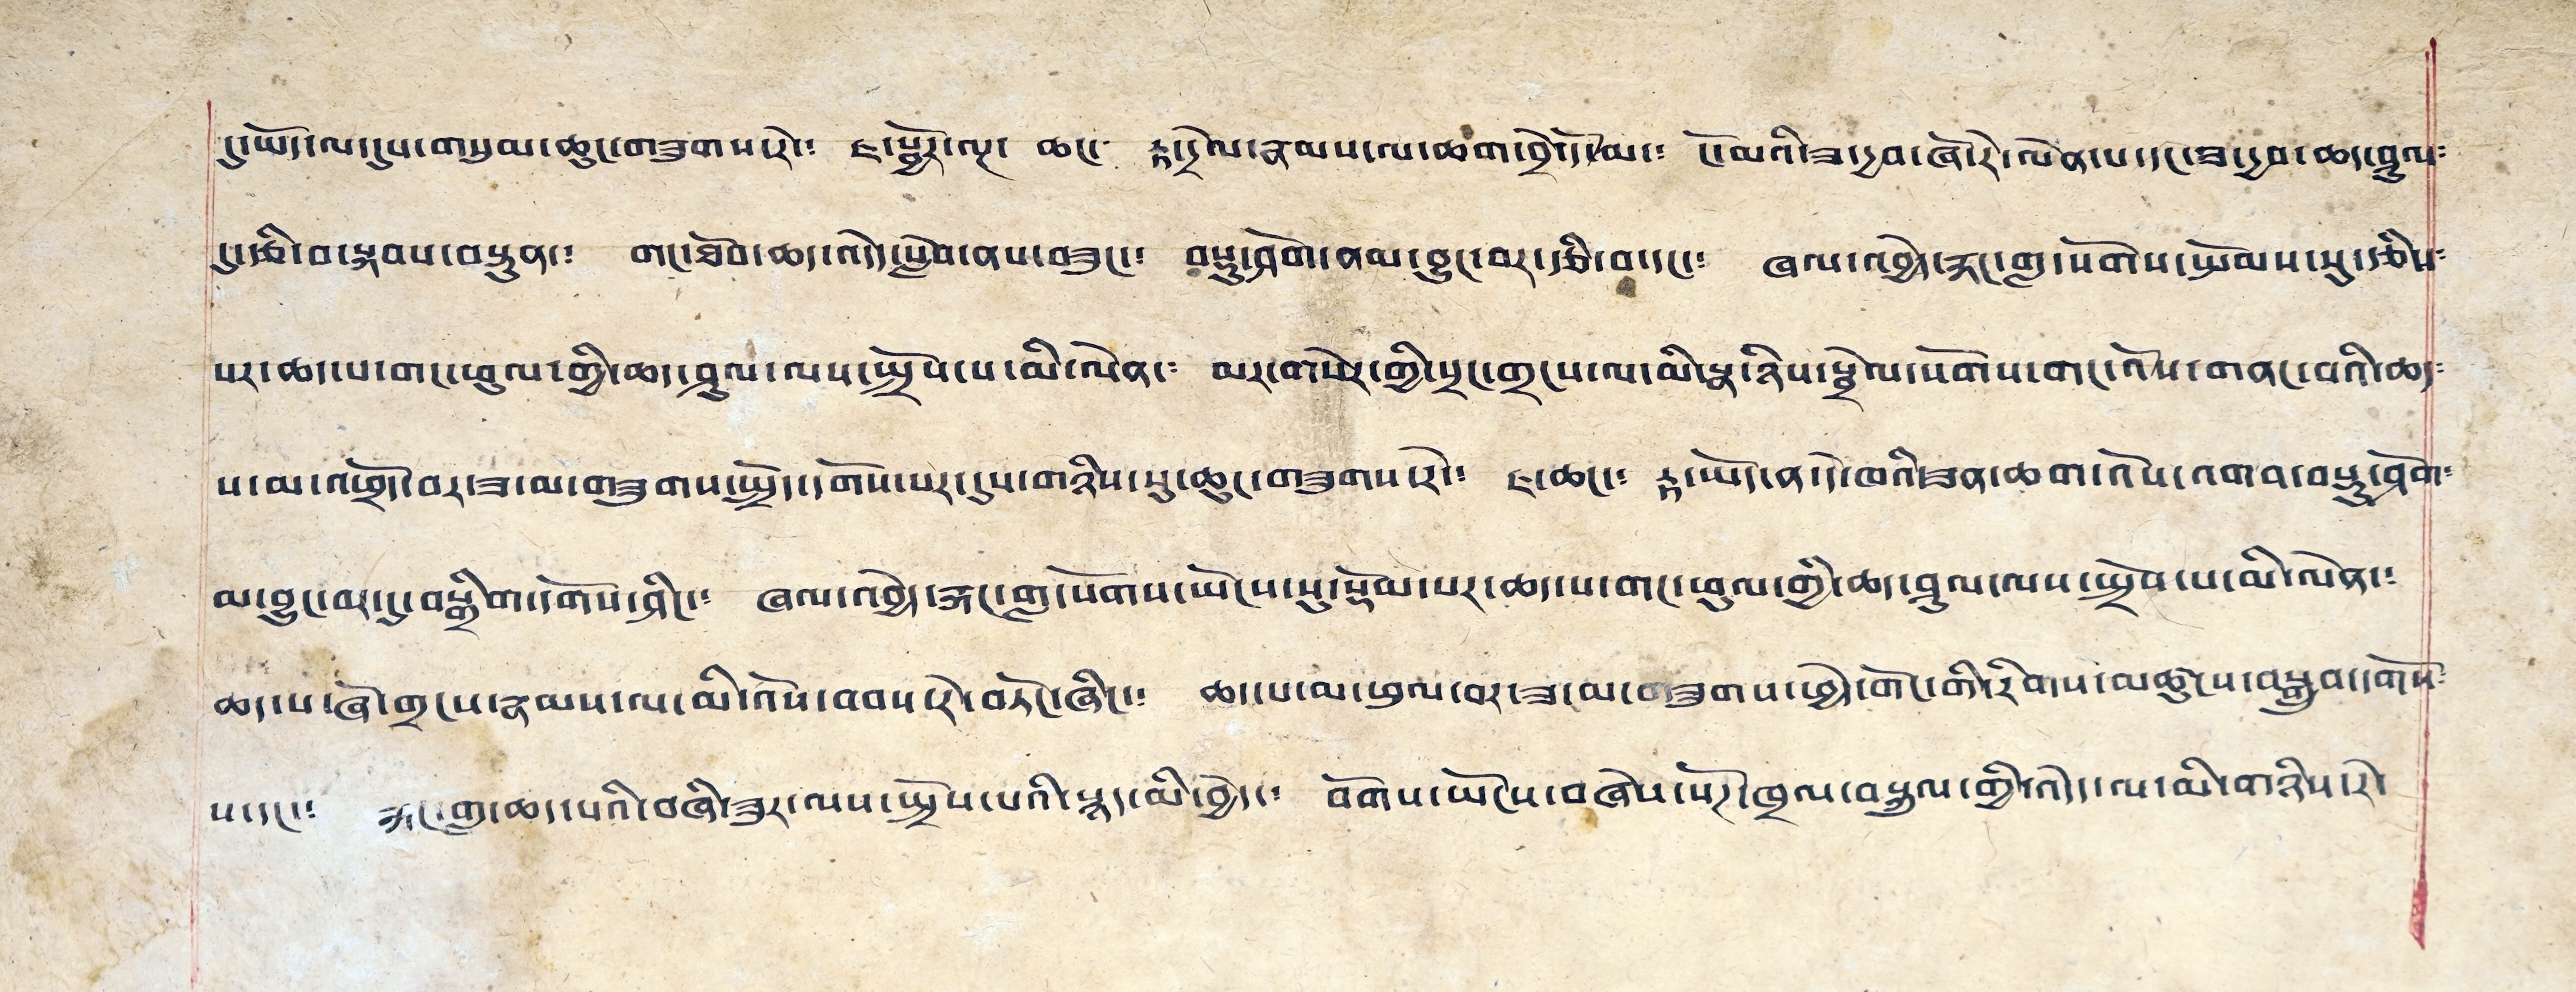དུ་ཡོད་ལ་དུས་གསུམ་ཆུང་གཟུགས་རེ་༴ ཇ་སྦྱོར་ལྔ། ཆང་། རྟ་དྲེལ་རྣམས་ལ་ཆག་བྲེ་དོ་མ་༴ ངོ་མའི་ཟ་དྱབ་ཞོ་རེ་ལེན་པ་དང་བ་དྱབ་མ་ཤུལ༴
དུ་རྩི་བ་སྐབས་བསྟུན་༴ གང་ཐོབ་ཆད་འདོད་སླེབ་ནས་བཟུང་༴ བསྡུ་ཤོག་ནམ་བྱུང་བར་རྩི་བ་དང་༴ ཁལ་འབྱེད་རྐང་གླ་སོགས་སྤོམས་སུ་རྩིས༴
པར་ཆད་པ་གང་ཕུལ་གྱི་ཆད་ཤུལ་ལས་སྤྲོས་པ་མི་ལེན་༴ མར་གསེར་གྱི་སྲང་གྲངས་ལ་མི་སྣ་ཉིས་སྦྲེལ་སོགས་གང་འོས་གནང་བའི་ཆད༴
པ་མ་འཕྲོད་བར་ཟ་མ་གཟུགས་སྤྲོད་དགོས་པར་དུས་གཉིས་སུ་ཆུང་གཟུགས་རེ་༴ ཇ་ཆང་༴ རྟ་ཡོད་ན་དེ་ཁའི་ཟན་ཆག་འོས་འགབ་བསྡུ་ཤོག༴
མ་བྱུང་བར་དུ་བསྒྲིག་དགོས་ཤིང་༴ ཞལ་འབྱེད་རྐང་གླ་སོགས་ཡོངས་སུ་སྡོམ་པར་ཆད་པ་གང་ཕུལ་གྱི་ཆད་ཤུལ་ལས་སྤྲོབ་པ་མི་ལེན་༴
ཆད་པ་ཞོ་གྲངས་རྣམས་ལ་མི་འོས་བབས་རེ་བཏོང་ཞིང་༴ ཆད་པ་ལ་ཕུལ་བར་ཟ་མ་གཟུགས་ཕྱེད་གོང་གི་རིགས་མཚུངས་བསྒྲུབ་དགོས༴
པ་དང་༴ རྐང་གླ་ཆད་པའི་བཞི་ཟུར་ལས་སྤྲོས་པའི་སྙད་མི་བྱེད་༴ བོགས་ཡོངས་བཞེས་སོཊ་ཁྲལ་བསྐུལ་གྱི་འདེད་ལ་མི་གཉིས་རེ་
